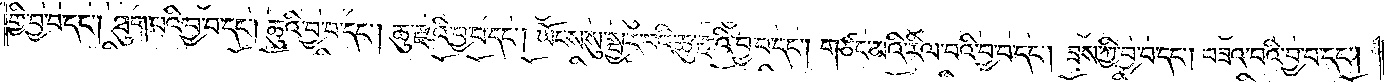གྱི་བྱ་བ་དང༌། ཐུག་པའི་བྱ་བ་དང༌། ཆུའི་བྱ་བ་དང༌། ཆུ་རྫའི་བྱ་བ་དང༌། ཡོངས་སུ་སྦྱར་བའི་ཆུ་རྫའི་བྱ་བ་དང༌། གཙང་མའི་རིལ་པའི་བྱ་བ་དང༌། ཟས་ཀྱི་བྱ་བ་དང༌། བཟའ་བའི་བྱ་བ་དང༌།
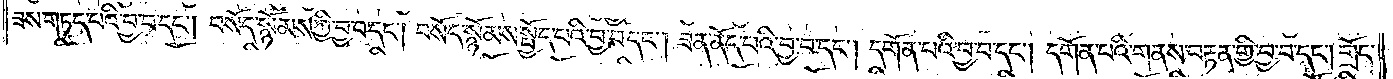ཟས་གཏད་པའི་བྱ་བ་དང༌། བསོད་སྙོམས་ཀྱི་བྱ་བ་དང༌། བསོད་སྙོམས་སྤྱོད་པའི་བྱ་བ་དང༌། ཟན་ནོད་པའི་བྱ་བ་དང༌། དགོན་པའི་བྱ་བ་དང༌། དགོན་པའི་གནས་བརྟན་གྱི་བྱ་བ་དང༌། གྲོང་
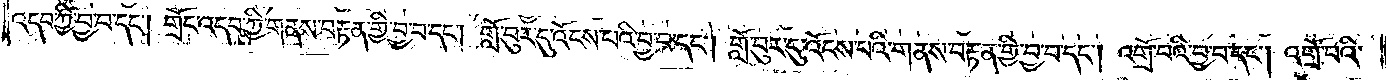འདབ་ཀྱི་བྱ་བ་དང༌། གྲོང་འདབ་ཀྱི་གནས་བརྟན་གྱི་བྱ་བ་དང༌། གློ་བུར་དུ་འོངས་པའི་བྱ་བ་དང༌། གློ་བུར་དུ་འོངས་པའི་གནས་བརྟན་གྱི་བྱ་བ་དང༌། འགྲོ་བའི་བྱ་བ་དང༌། འགྲོ་བའི་
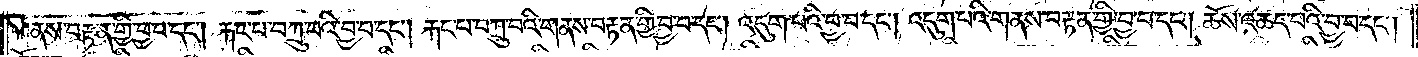གནས་བརྟན་གྱི་བྱ་བ་དང༌། རྐང་པ་བཀྲུ་བའི་བྱ་བ་དང༌། རྐང་པ་བཀྲུ་བའི་གནས་བརྟན་གྱི་བྱ་བ་དང༌། འདུག་པའི་བྱ་བ་དང༌། འདུག་པའི་གནས་བརྟན་གྱི་བྱ་བ་དང༌། ཆོས་འཆད་པའི་བྱ་བ་དང༌།
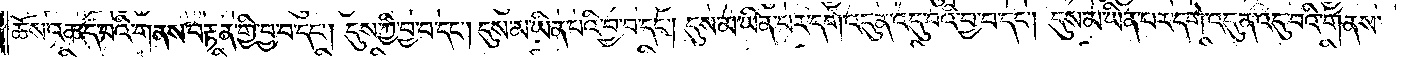ཆོས་འཆད་པའི་གནས་བརྟན་གྱི་བྱ་བ་དང༌། དུས་ཀྱི་བྱ་བ་དང༌། དུས་མ་ཡིན་པའི་བྱ་བ་དང༌། དུས་མ་ཡིན་པར་དགེ་འདུན་འདུ་བའི་བྱ་བ་དང༌། དུས་མ་ཡིན་པར་དགེ་འདུན་འདུ་བའི་གནས་
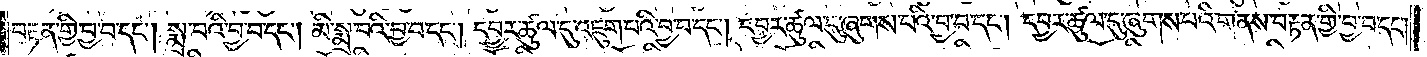བརྟན་གྱི་བྱ་བ་དང༌། སྨྲ་བའི་བྱ་བ་དང༌། མི་སྨྲ་བའི་བྱ་བ་དང༌། དབྱར་ཚུལ་དུ་འཇུག་པའི་བྱ་བ་དང༌། དབྱར་ཚུལ་དུ་ཞུགས་པའི་བྱ་བ་དང༌། དབྱར་ཚུལ་དུ་ཞུགས་པའི་གནས་བརྟན་གྱི་བྱ་བ་དང༌།
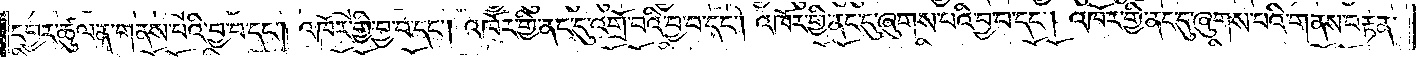དབྱར་ཚུལ་ན་གནས་པའི་བྱ་བ་དང༌། འཁོར་གྱི་བྱ་བ་དང༌། འཁོར་གྱི་ནང་དུ་འགྲོ་བའི་བྱ་བ་དང༌། འཁོར་གྱི་ནང་དུ་ཞུགས་པའི་བྱ་བ་དང༌། འཁོར་གྱི་ནང་དུ་ཞུགས་པའི་གནས་བརྟན་
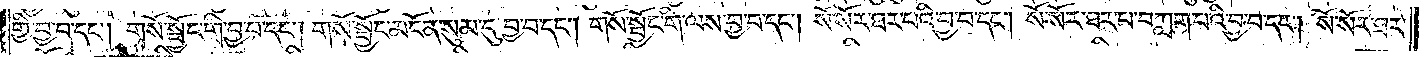གྱི་བྱ་བ་དང༌། གསོ་སྦྱོང་གི་བྱ་བ་དང༌། གསོ་སྦྱོང་མངོན་སུམ་དུ་བྱ་བ་དང༌། གསོ་སྦྱོང་གི་ལས་བྱ་བ་དང༌། སོ་སོར་ཐར་པའི་བྱ་བ་དང༌། སོ་སོར་ཐར་པ་བཀླག་པའི་བྱ་བ་དང༌། སོ་སོར་ཐར་
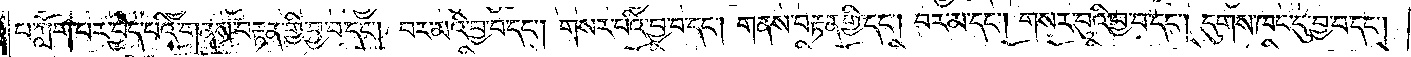པ་ཀློག་པར་བྱེད་པའི་གནས་བརྟན་གྱི་བྱ་བ་དང༌། བར་མའི་བྱ་བ་དང༌། གསར་པའི་བྱ་བ་དང༌། གནས་བརྟན་གྱི་དང༌། བར་མ་དང༌། གསར་བུའི་བྱ་བ་དང༌། དུགས་ཁང་དུ་བྱ་བ་དང༌།
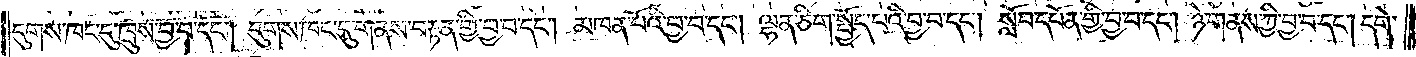དུགས་ཁང་དུ་ཁྲུས་བྱ་བ་དང༌། དུགས་ཁང་དུ་གནས་བརྟན་གྱི་བྱ་བ་དང༌། མཁན་པོའི་བྱ་བ་དང༌། ལྷན་ཅིག་སྤྱོད་པའི་བྱ་བ་དང༌། སློབ་དཔོན་གྱི་བྱ་བ་དང༌། ཉེ་གནས་ཀྱི་བྱ་བ་དང༌། དགེ་
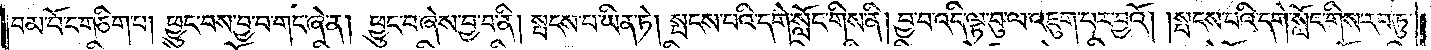བམ་པོ་ང་གཅིག་པ། ཕྱུང་བས་བྱ་བ་གང་ཞེ་ན། ཕྱུང་བ་ཞེས་བྱ་བ་ནི། སྤངས་པ་ཡིན་ཏེ། སྤངས་པའི་དགེ་སློང་གིས་ནི། བྱ་བ་འདི་ལྟ་བུ་ལ་འཇུག་པར་བྱའོ། །སྤངས་པའི་དགེ་སློང་གིས་རབ་ཏུ་
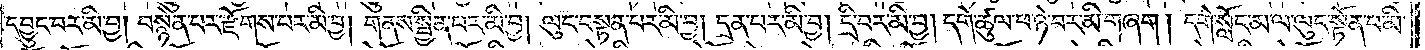དབྱུང་བར་མི་བྱ། བསྙེན་པར་རྫོགས་པར་མི་བྱ། གནས་སྦྱིན་པར་མི་བྱ། ལུང་བསྟན་པར་མི་བྱ། དྲན་པར་མི་བྱ། དྲི་བར་མི་བྱ། དགེ་ཚུལ་ཕ་ཉེ་བར་མི་གཞག། དགེ་སློང་མ་ལ་ལུང་སྟོན་པ་མི་
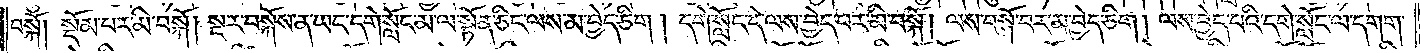བསྐོ། སྡོམ་པར་མི་བསྐོ། སྔར་བསྐོས་ན་ཡང་དགེ་སློང་མ་ལ་སྟོན་ཅིང་ལས་མ་བྱེད་ཅིག། དགེ་སློང་དེ་ལས་བྱེད་པར་མི་བསྐོ། ལས་བསྐོ་བར་མ་བྱེད་ཅིག། ལས་བྱེད་པའི་དགེ་སློང་ལ་དགག་
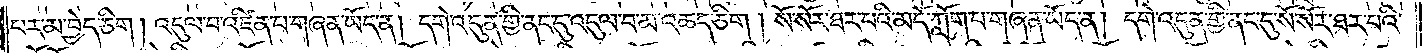པར་མ་བྱེད་ཅིག། འདུལ་བ་འཛིན་པ་གཞན་ཡོད་ན། དགེ་འདུན་གྱི་ནང་དུ་འདུལ་བ་མ་འཆད་ཅིག། སོ་སོར་ཐར་པའི་མདོ་ཀློག་པ་གཞན་ཡོད་ན། དགེ་འདུན་གྱི་ནང་དུ་སོ་སོར་ཐར་པའི་
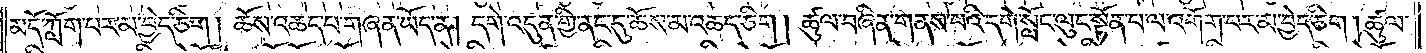མདོ་ཀློག་པར་མ་བྱེད་ཅིག །ཆོས་འཆད་པ་གཞན་ཡོད་ན། དགེ་འདུན་གྱི་ནང་དུ་ཆོས་མ་འཆད་ཅིག། ཚུལ་བཞིན་གནས་པའི་དགེ་སློང་ལུང་སྟོན་པ་ལ་འགོག་པར་མ་བྱེད་ཅིག། ཚུལ་
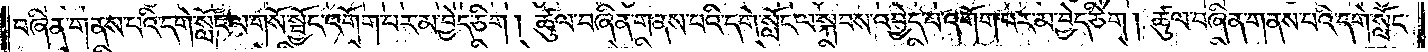བཞིན་གནས་པའི་དགེ་སློང་ལ་གསོ་སྦྱོང་འགོག་པར་མ་བྱེད་ཅིག །ཚུལ་བཞིན་གནས་པའི་དགེ་སློང་ལ་སྐབས་འབྱེད་པ་འགོག་པར་མ་བྱེད་ཅིག། ཚུལ་བཞིན་གནས་པའི་དགེ་སློང་
